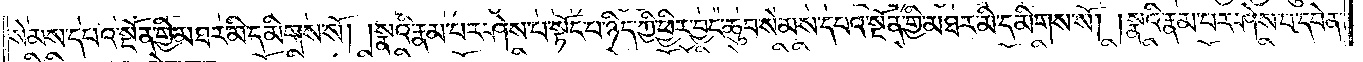སེམས་དཔའ་སྔོན་གྱི་མཐར་མི་དམིགས་སོ། །སྣའི་རྣམ་པར་ཤེས་པ་སྟོང་པ་ཉིད་ཀྱི་ཕྱིར་བྱང་ཆུབ་སེམས་དཔའ་སྔོན་གྱི་མཐར་མི་དམིགས་སོ། །སྣའི་རྣམ་པར་ཤེས་པ་དབེན་
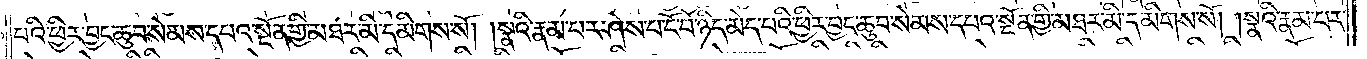པའི་ཕྱིར་བྱང་ཆུབ་སེམས་དཔའ་སྔོན་གྱི་མཐར་མི་དམིགས་སོ། །སྣའི་རྣམ་པར་ཤེས་པ་ངོ་བོ་ཉིད་མེད་པའི་ཕྱིར་བྱང་ཆུབ་སེམས་དཔའ་སྔོན་གྱི་མཐར་མི་དམིགས་སོ། །སྣའི་རྣམ་པར་
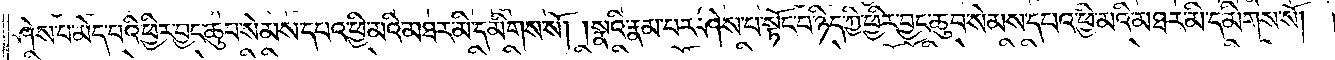ཤེས་པ་མེད་པའི་ཕྱིར་བྱང་ཆུབ་སེམས་དཔའ་ཕྱི་མའི་མཐར་མི་དམིགས་སོ། །སྣའི་རྣམ་པར་ཤེས་པ་སྟོང་པ་ཉིད་ཀྱི་ཕྱིར་བྱང་ཆུབ་སེམས་དཔའ་ཕྱི་མའི་མཐར་མི་དམིགས་སོ། །
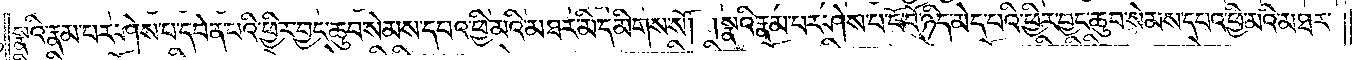སྣའི་རྣམ་པར་ཤེས་པ་དབེན་པའི་ཕྱིར་བྱང་ཆུབ་སེམས་དཔའ་ཕྱི་མའི་མཐར་མི་དམིགས་སོ། །སྣའི་རྣམ་པར་ཤེས་པ་ངོ་བོ་ཉིད་མེད་པའི་ཕྱིར་བྱང་ཆུབ་སེམས་དཔའ་ཕྱི་མའི་མཐར་
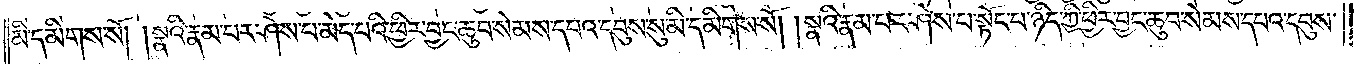མི་དམིགས་སོ། །སྣའི་རྣམ་པར་ཤེས་པ་མེད་པའི་ཕྱིར་བྱང་ཆུབ་སེམས་དཔའ་དབུས་སུ་མི་དམིགས་སོ། །སྣའི་རྣམ་པར་ཤེས་པ་སྟོང་པ་ཉིད་ཀྱི་ཕྱིར་བྱང་ཆུབ་སེམས་དཔའ་དབུས་
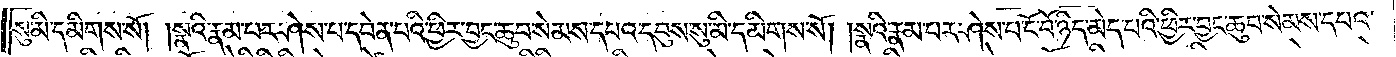སུ་མི་དམིགས་སོ། །སྣའི་རྣམ་པར་ཤེས་པ་དབེན་པའི་ཕྱིར་བྱང་ཆུབ་སེམས་དཔའ་དབུས་སུ་མི་དམིགས་སོ། །སྣའི་རྣམ་པར་ཤེས་པ་ངོ་བོ་ཉིད་མེད་པའི་ཕྱིར་བྱང་ཆུབ་སེམས་དཔའ་
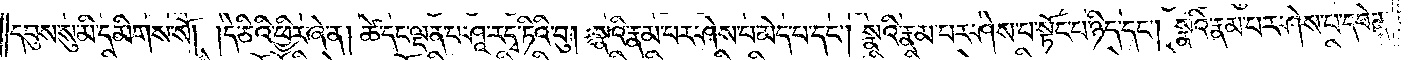དབུས་སུ་མི་དམིགས་སོ། །དེ་ཅིའི་ཕྱིར་ཞེ་ན། ཚེ་དང་ལྡན་པ་ཤཱ་རདྭ་ཏིའི་བུ། སྣའི་རྣམ་པར་ཤེས་པ་མེད་པ་དང༌། སྣའི་རྣམ་པར་ཤེས་པ་སྟོང་པ་ཉིད་དང༌། སྣའི་རྣམ་པར་ཤེས་པ་དབེན་
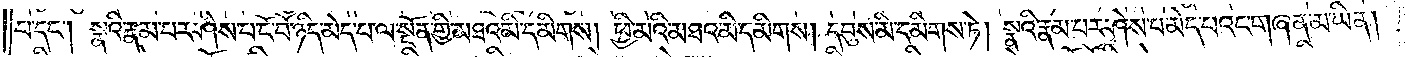པ་དང༌། སྣའི་རྣམ་པར་ཤེས་པ་ངོ་བོ་ཉིད་མེད་པ་ལ་སྔོན་གྱི་མཐའ་མི་དམིགས། ཕྱི་མའི་མཐའ་མི་དམིགས། དབུས་མི་དམིགས་ཏེ། སྣའི་རྣམ་པར་ཤེས་པ་མེད་པའང་གཞན་མ་ཡིན།
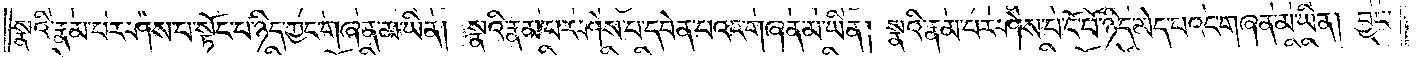སྣའི་རྣམ་པར་ཤེས་པ་སྟོང་པ་ཉིད་ཀྱང་གཞན་མ་ཡིན། སྣའི་རྣམ་པར་ཤེས་པ་དབེན་པའང་གཞན་མ་ཡིན། སྣའི་རྣམ་པར་ཤེས་པ་ངོ་བོ་ཉིད་མེད་པའང་གཞན་མ་ཡིན། བྱང་
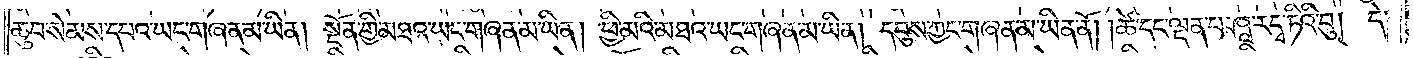ཆུབ་སེམས་དཔའ་ཡང་གཞན་མ་ཡིན། སྔོན་གྱི་མཐའ་ཡང་གཞན་མ་ཡིན། ཕྱི་མའི་མཐའ་ཡང་གཞན་མ་ཡིན། དབུས་ཀྱང་གཞན་མ་ཡིན་ནོ། །ཚེ་དང་ལྡན་པ་ཤཱ་རདྭ་ཏིའི་བུ། དེ་
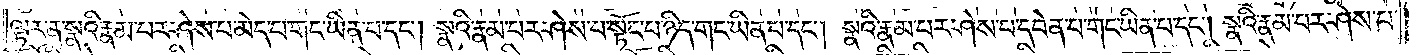ལྟར་ན་སྣའི་རྣམ་པར་ཤེས་པ་མེད་པ་གང་ཡིན་པ་དང༌། སྣའི་རྣམ་པར་ཤེས་པ་སྟོང་པ་ཉིད་གང་ཡིན་པ་དང༌། སྣའི་རྣམ་པར་ཤེས་པ་དབེན་པ་གང་ཡིན་པ་དང༌། སྣའི་རྣམ་པར་ཤེས་པ་
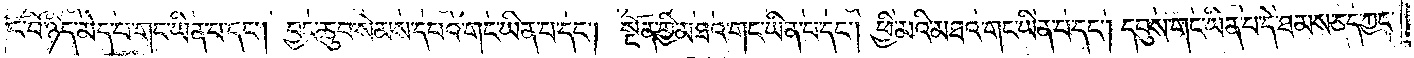ངོ་བོ་ཉིད་མེད་པ་གང་ཡིན་པ་དང༌། བྱང་ཆུབ་སེམས་དཔའ་གང་ཡིན་པ་དང༌། སྔོན་གྱི་མཐའ་གང་ཡིན་པ་དང༌། ཕྱི་མའི་མཐའ་གང་ཡིན་པ་དང༌། དབུས་གང་ཡིན་པ་དེ་ཐམས་ཅད་ཀྱང་
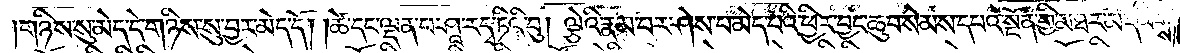གཉིས་སུ་མེད་དེ་གཉིས་སུ་བྱར་མེད་དོ། །ཚེ་དང་ལྡན་པ་ཤཱ་རདྭ་ཏིའི་བུ། ལྕེའི་རྣམ་པར་ཤེས་པ་མེད་པའི་ཕྱིར་བྱང་ཆུབ་སེམས་དཔའ་སྔོན་གྱི་མཐར་མི་དམིགས་
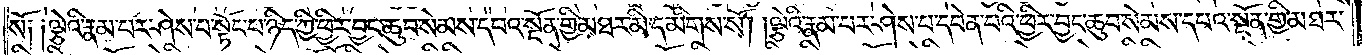སོ། །ལྕེའི་རྣམ་པར་ཤེས་པ་སྟོང་པ་ཉིད་ཀྱི་ཕྱིར་བྱང་ཆུབ་སེམས་དཔའ་སྔོན་གྱི་མཐར་མི་དམིགས་སོ། །ལྕེའི་རྣམ་པར་ཤེས་པ་དབེན་པའི་ཕྱིར་བྱང་ཆུབ་སེམས་དཔའ་སྔོན་གྱི་མཐར་
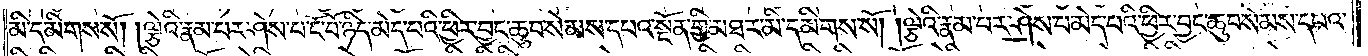མི་དམིགས་སོ། །ལྕེའི་རྣམ་པར་ཤེས་པ་ངོ་བོ་ཉིད་མེད་པའི་ཕྱིར་བྱང་ཆུབ་སེམས་དཔའ་སྔོན་གྱི་མཐར་མི་དམིགས་སོ། །ལྕེའི་རྣམ་པར་ཤེས་པ་མེད་པའི་ཕྱིར་བྱང་ཆུབ་སེམས་དཔའ་
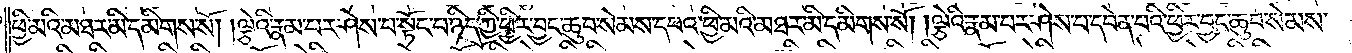ཕྱི་མའི་མཐར་མི་དམིགས་སོ། །ལྕེའི་རྣམ་པར་ཤེས་པ་སྟོང་པ་ཉིད་ཀྱི་ཕྱིར་བྱང་ཆུབ་སེམས་དཔའ་ཕྱི་མའི་མཐར་མི་དམིགས་སོ། །ལྕེའི་རྣམ་པར་ཤེས་པ་དབེན་པའི་ཕྱིར་བྱང་ཆུབ་སེམས་
